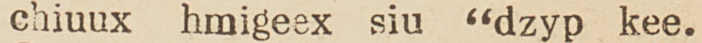chiuux hmigeex siu "dzyp kee.
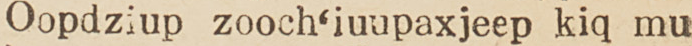Oopdziup zooch'iuupaxjeep kiq mu
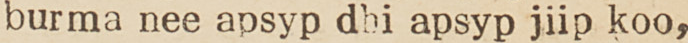burma nee apsyp dhi apsyp kiip koo,
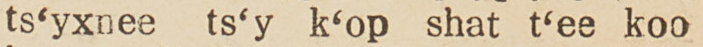ts'yxnee ts'y k'op shat t'ee koo
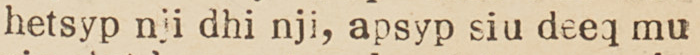hetsyp nji dhi nji, apsyp siu deeq mu
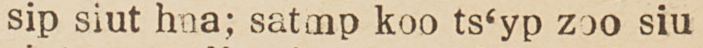sip siut hna; satmp koo ts'yp zoo siu
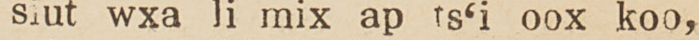siut wxa li mix ap ts'i oox Koo,
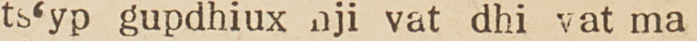ts'yp gupdhiux nji vat dhi vat ma
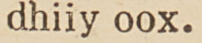dhiiy oox.
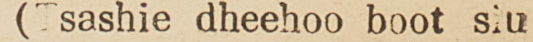(Tsashie dheehoo boot siu
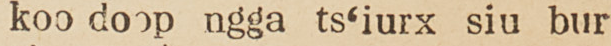koo doop ngga ts'iurx siu bur
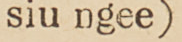siu ngee)
